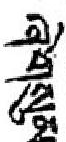ཞེ་གསུམ་
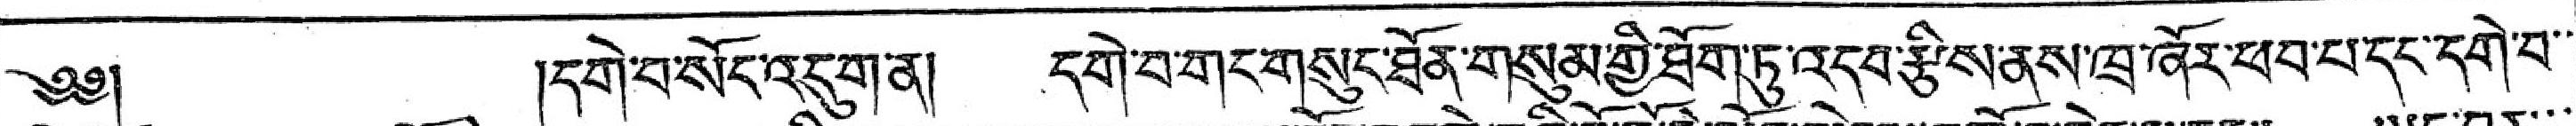༄༅།  །དགེ་བ་སོང་འདུག་ན། དགེ་བ་གང་གསུང་ཐོན་གསུམ་གྱི་ཐོག་ཏུ་འདབ་རྩིས་ནས་ཁྲ་ཞོར་ཕབ་པ་དང་དགེ་བ་་
